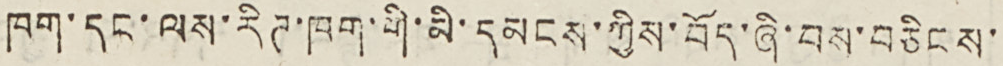ཁག་དང་ལས་རིཊ་ཁག་གི་མི་དམངས་ཀྱིས་བོད་ཞི་བས་བཅིངས་
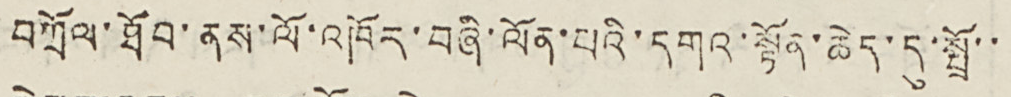བཀྲོལ་ཐོབ་ནས་ལོ་འཁོར་བཞི་ལོན་པའི་དགའ་སྟོན་ཆེད་དུ་སྤྲོ་་
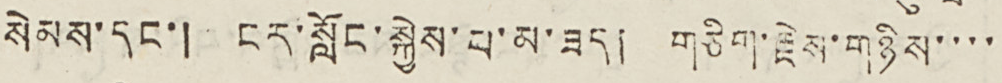སེམས་དང་། ངར་སློང་སྐྱེས་པ་མ་ཟད། གཅིག་རྗེས་གཉིས་་་་
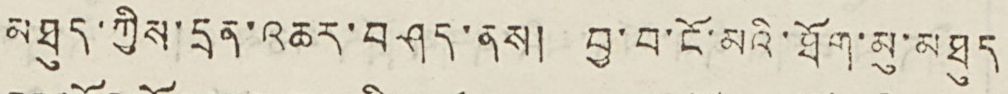མཐུད་ཀྱིས་དྲན་འཆར་བཤད་ནས། བྱ་བ་ངོ་མའི་ཐོག་མུ་མཐུད
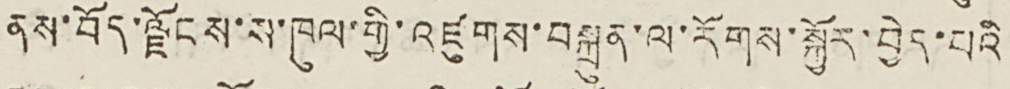ནས་བོད་ལྗོངས་ས་ཁུལ་གྱི་འཛུགས་བསྐྲུན་ལ་རོགས་སྐྱོར་བྱེད་པའི
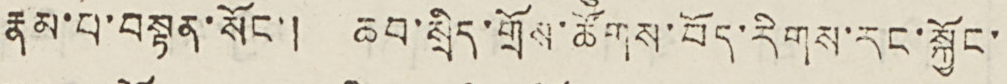རྣམ་པ་བསྟན་སོང་། ཆབ་སྲིད་གྲོས་ཚོགས་བོད་རིགས་རང་སྐྱོང་
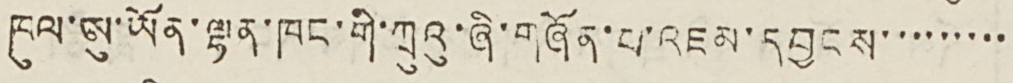ཁུལ་ཨུ་ཡོན་ལྷན་ཁང་གི་ཀྲུའུ་ཞི་གཞོན་པ་འཇམ་དབྱངས་་་་་་་་་
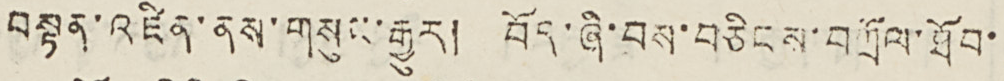བསྟན་འཛིན་ནས་གསུང་རྒྱུར། བོད་ཞི་བས་བཅིངས་བཀྲོལ་ཐོབ་
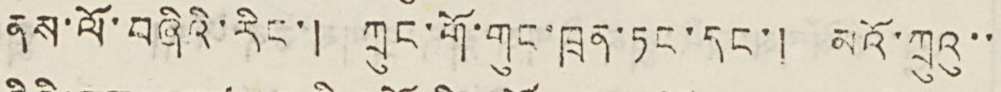ནས་ལོ་བཞིའི་རིང་། ཀྲུང་གོ་གུང་ཁྲན་ཏང་དང་། མའོ་ཀྲུའུ་་
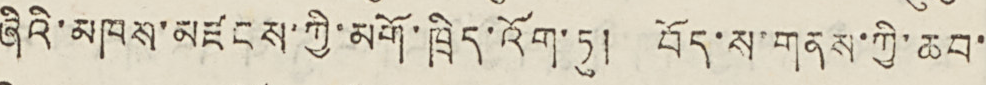ཞིའི་མཁས་མཛངས་ཀྱི་མགོ་ཁྲིད་འོག་ཏུ། བོད་ས་གནས་ཀྱི་ཆབ་
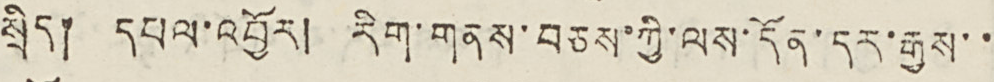སྲིད། དཔལ་འབྱོར། རིག་གནས་བཅས་ཀྱི་ལས་དོན་དར་རྒྱས་་
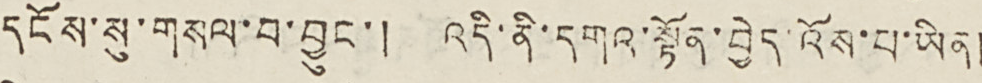དངོས་སུ་གསལ་བ་བྱུང་། འདི་ནི་དགའ་སྟོན་བྱེད་འོས་པ་ཡིན།
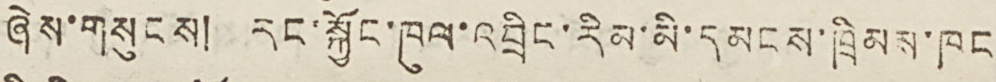ཞེས་གསུངས། རང་སྐྱོང་ཁུལ་འབྲིང་རིམ་མི་དམངས་ཁྲིམས་ཁང
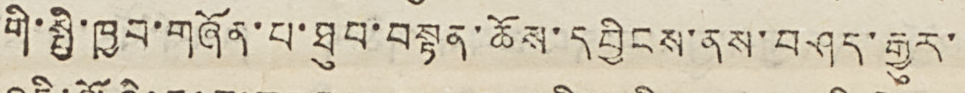གི་སྤྱི་ཁྱབ་གཞོན་པ་ཐུབ་བསྟན་ཆོས་དབྱིངས་ནས་བཤད་རྒྱུར་
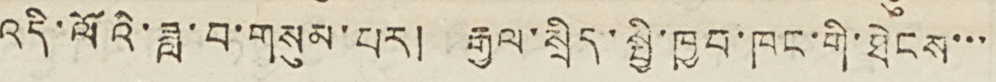འདི་ལོའི་ཟླ་བ་གསུམ་པར། རྒྱལ་སྲིད་སྤྱི་ཁྱབ་ཁང་གི་ཐེངས་་་
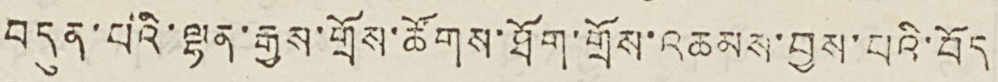བདུན་པའི་ལྷན་རྒྱས་གྲོས་ཚོགས་ཐོག་གྲོས་འཆམས་བྱས་པའི་བོད
